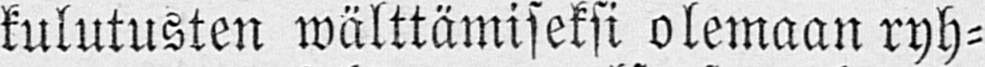kulutusten wälttämiseksi olemaan ryh-
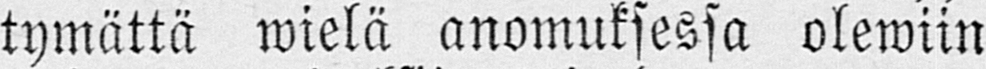tymättä wielä anomuksessa olewiin
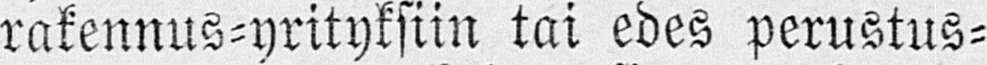rakennus-yrityksiin tai edes perustus-
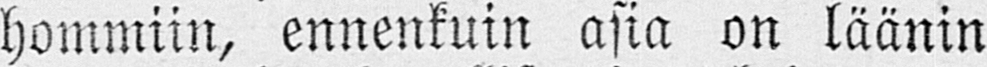hommiin, ennenkuin asia on läänin
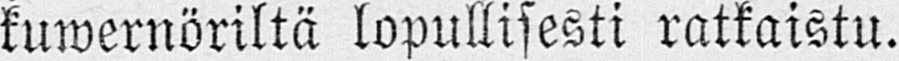kuwernöriltä lopullisesti ratkaistu.
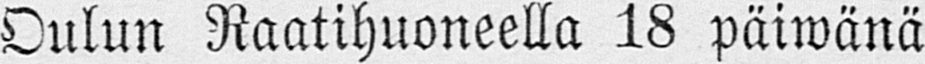Oulun Raatihuoneella 18 päiwänä
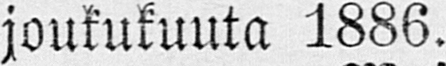joulukuuta 1886.
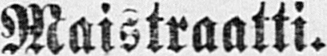Maistraatti.
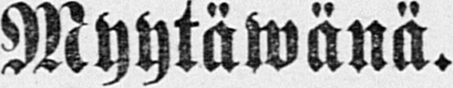Myytäwänä.
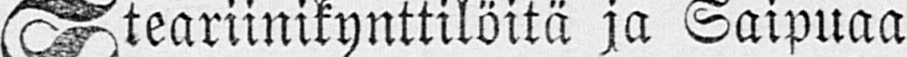Steariinikynttilöitä ja Saipuaa
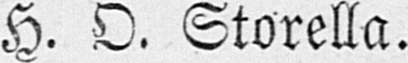H. O. Storella.
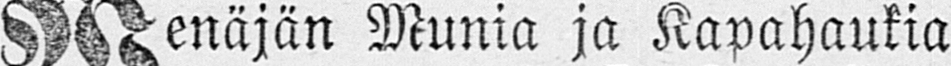Wenäjän Munia ja Kapahaukia
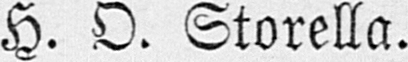H. O. Storella.
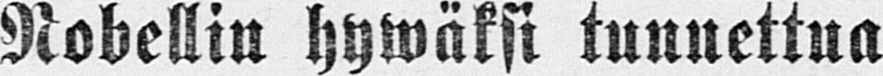Nobellin hywäksi tunnettua
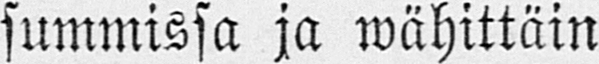summissa ja wähittäin
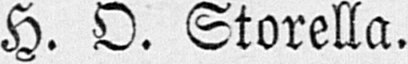H. O. Storella.
